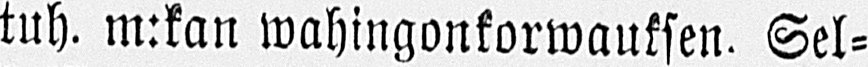tuh. m:kan wahingonkorwauksen. Sel-
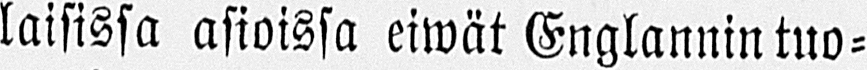laisissa asioissa eiwät Englannin tuo-
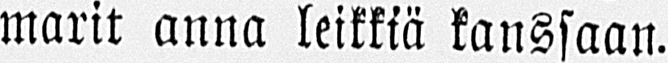marit anna leikkiä kanssaan.
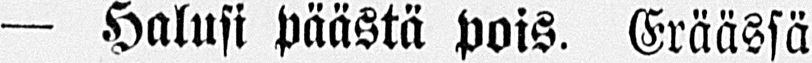- Halusi päästä pois. Eräässä
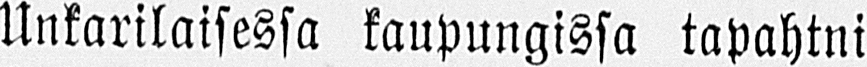Unkarilaisessa kaupungissa tapahtni
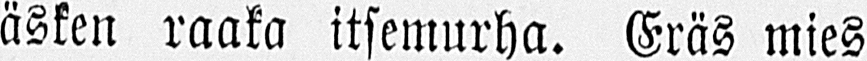äsken raaka itsemurha. Eräs mies
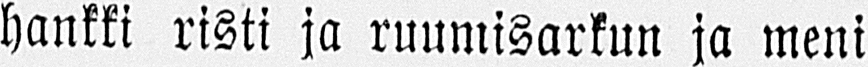hankki risti ja ruumisarkun ja meni
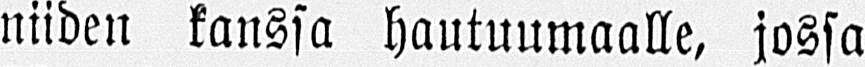niiden kanssa hautuumaalle, jossa
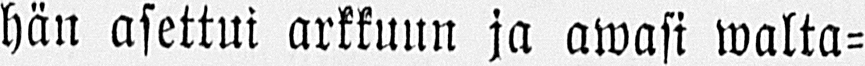hän asettui arkkuun ja awasi walta-
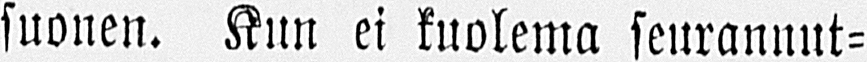suonen. Kun ei kuolema seurannut-
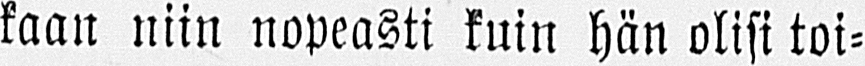kaan niin nopeasti kuin hän olisi toi-
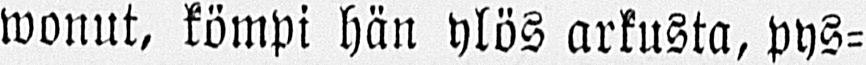wonut, kömpi hän ylös arkusta, pys-
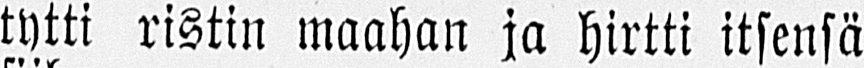tytti ristin maahan ja hirtti itsensä
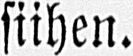siihen.
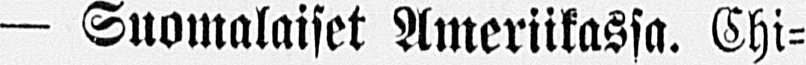— Suomalaiset Ameriikassa. Chi-
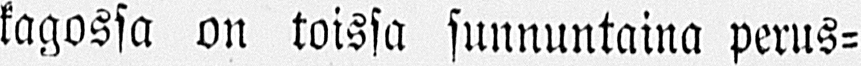kagossa on toissa sunnuntaina perus-
